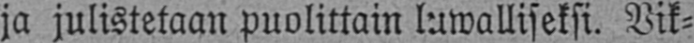ja julistetaan puolittain luwalliseksi. Vik-
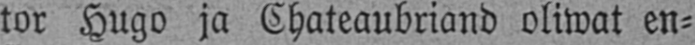tor Hugo ja Chateaubriand oliwat en-
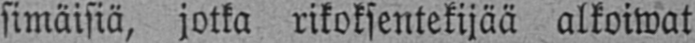simäisiä, jotka rikoksentekijää alkoiwat
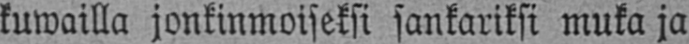kuwailla jonkinmoiseksi sankariksi muka ja
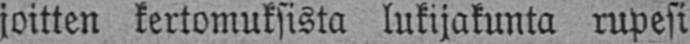joitten kertomuksista lukijakunta rupesi
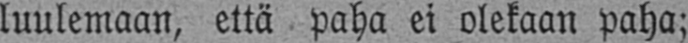luulemaan, että paha ei olekaan paha;
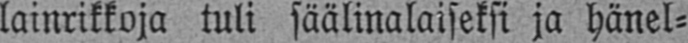lainrikkoja tuli säälinalaiseksi ja hänel-
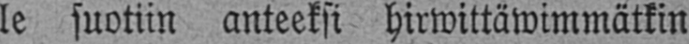le suotiin anteeksi hirwittäwimmätkin
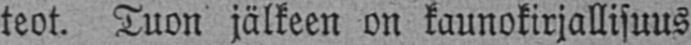teot. Tuon jälkeen on kaunokirjallisuus
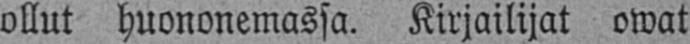ollut huononemassa. Kirjailijat owat
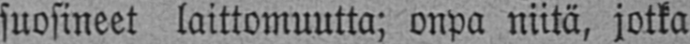suosineet laittomuutta; onpa niitä, jotka
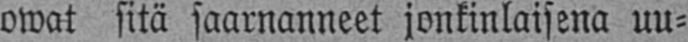owat sitä saarnanneet jonkinlaisena uu-
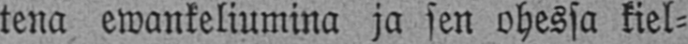tena ewankeliumina ja sen ohessa kiel-
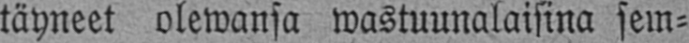täyneet olewansa wastuunalaisina sem-
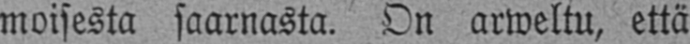moisesta saarnasta. On arweltu, että
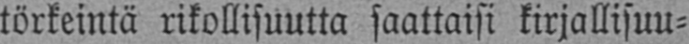törkeintä rikollisuutta saattaisi kirjallisuu-
